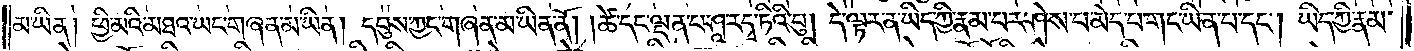མ་ཡིན། ཕྱི་མའི་མཐའ་ཡང་གཞན་མ་ཡིན། དབུས་ཀྱང་གཞན་མ་ཡིན་ནོ། །ཚེ་དང་ལྡན་པ་ཤཱ་རདྭ་ཏིའི་བུ། དེ་ལྟར་ན་ཡིད་ཀྱི་རྣམ་པར་ཤེས་པ་མེད་པ་གང་ཡིན་པ་དང༌། ཡིད་ཀྱི་རྣམ་
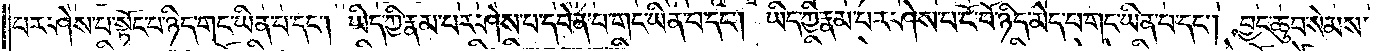པར་ཤེས་པ་སྟོང་པ་ཉིད་གང་ཡིན་པ་དང༌། ཡིད་ཀྱི་རྣམ་པར་ཤེས་པ་དབེན་པ་གང་ཡིན་པ་དང༌། ཡིད་ཀྱི་རྣམ་པར་ཤེས་པ་ངོ་བོ་ཉིད་མེད་པ་གང་ཡིན་པ་དང༌། བྱང་ཆུབ་སེམས་
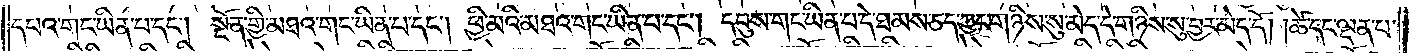དཔའ་གང་ཡིན་པ་དང༌། སྔོན་གྱི་མཐའ་གང་ཡིན་པ་དང༌། ཕྱི་མའི་མཐའ་གང་ཡིན་པ་དང༌། དབུས་གང་ཡིན་པ་དེ་ཐམས་ཅད་ཀྱང་གཉིས་སུ་མེད་དེ་གཉིས་སུ་བྱར་མེད་དོ། །ཚེ་དང་ལྡན་པ་
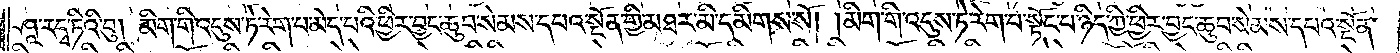ཤཱ་རདྭ་ཏིའི་བུ། མིག་གི་འདུས་ཏེ་རེག་པ་མེད་པའི་ཕྱིར་བྱང་ཆུབ་སེམས་དཔའ་སྔོན་གྱི་མཐར་མི་དམིགས་སོ། །མིག་གི་འདུས་ཏེ་རེག་པ་སྟོང་པ་ཉིད་ཀྱི་ཕྱིར་བྱང་ཆུབ་སེམས་དཔའ་སྔོན་
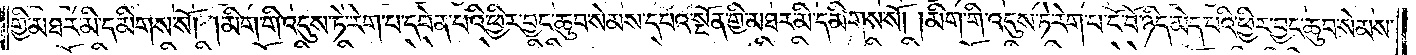གྱི་མཐར་མི་དམིགས་སོ། །མིག་གི་འདུས་ཏེ་རེག་པ་དབེན་པའི་ཕྱིར་བྱང་ཆུབ་སེམས་དཔའ་སྔོན་གྱི་མཐར་མི་དམིགས་སོ། །མིག་གི་འདུས་ཏེ་རེག་པ་ངོ་བོ་ཉིད་མེད་པའི་ཕྱིར་བྱང་ཆུབ་སེམས་
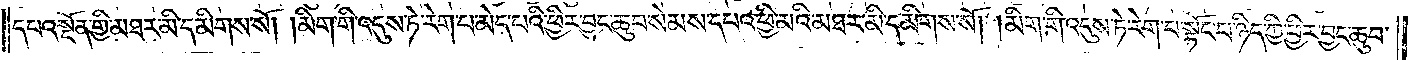དཔའ་སྔོན་གྱི་མཐར་མི་དམིགས་སོ། །མིག་གི་འདུས་ཏེ་རེག་པ་མེད་པའི་ཕྱིར་བྱང་ཆུབ་སེམས་དཔའ་ཕྱི་མའི་མཐར་མི་དམིགས་སོ། །མིག་གི་འདུས་ཏེ་རེག་པ་སྟོང་པ་ཉིད་ཀྱི་ཕྱིར་བྱང་ཆུབ་
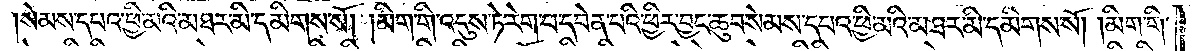སེམས་དཔའ་ཕྱི་མའི་མཐར་མི་དམིགས་སོ། །མིག་གི་འདུས་ཏེ་རེག་པ་དབེན་པའི་ཕྱིར་བྱང་ཆུབ་སེམས་དཔའ་ཕྱི་མའི་མཐར་མི་དམིགས་སོ། །མིག་གི་
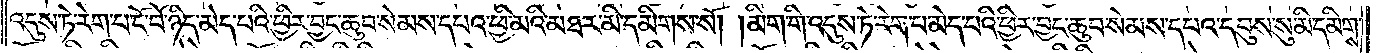འདུས་ཏེ་རེག་པ་ངོ་བོ་ཉིད་མེད་པའི་ཕྱིར་བྱང་ཆུབ་སེམས་དཔའ་ཕྱི་མའི་མཐར་མི་དམིགས་སོ། །མིག་གི་འདུས་ཏེ་རེག་པ་མེད་པའི་ཕྱིར་བྱང་ཆུབ་སེམས་དཔའ་དབུས་སུ་མི་དམིགས་
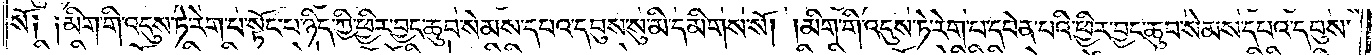སོ། །མིག་གི་འདུས་ཏེ་རེག་པ་སྟོང་པ་ཉིད་ཀྱི་ཕྱིར་བྱང་ཆུབ་སེམས་དཔའ་དབུས་སུ་མི་དམིགས་སོ། །མིག་གི་འདུས་ཏེ་རེག་པ་དབེན་པའི་ཕྱིར་བྱང་ཆུབ་སེམས་དཔའ་དབུས་
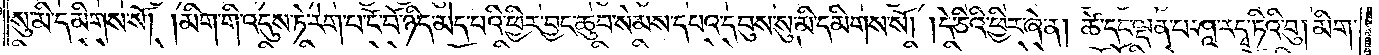སུ་མི་དམིགས་སོ། །མིག་གི་འདུས་ཏེ་རེག་པ་ངོ་བོ་ཉིད་མེད་པའི་ཕྱིར་བྱང་ཆུབ་སེམས་དཔའ་དབུས་སུ་མི་དམིགས་སོ། །དེ་ཅིའི་ཕྱིར་ཞེ་ན། ཚེ་དང་ལྡན་པ་ཤཱ་རདྭ་ཏིའི་བུ། མིག་
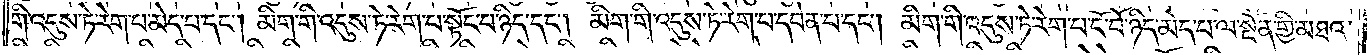གི་འདུས་ཏེ་རེག་པ་མེད་པ་དང༌། མིག་གི་འདུས་ཏེ་རེག་པ་སྟོང་པ་ཉིད་དང༌། མིག་གི་འདུས་ཏེ་རེག་པ་དབེན་པ་དང༌། མིག་གི་འདུས་ཏེ་རེག་པ་ངོ་བོ་ཉིད་མེད་པ་ལ་སྔོན་གྱི་མཐའ་
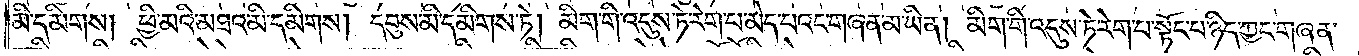མི་དམིགས། ཕྱི་མའི་མཐའ་མི་དམིགས། དབུས་མི་དམིགས་ཏེ། མིག་གི་འདུས་ཏེ་རེག་པ་མེད་པའང་གཞན་མ་ཡིན། མིག་གི་འདུས་ཏེ་རེག་པ་སྟོང་པ་ཉིད་ཀྱང་གཞན་
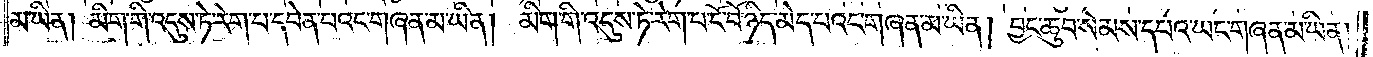མ་ཡིན། མིག་གི་འདུས་ཏེ་རེག་པ་དབེན་པའང་གཞན་མ་ཡིན། མིག་གི་འདུས་ཏེ་རེག་པ་ངོ་བོ་ཉིད་མེད་པའང་གཞན་མ་ཡིན་བྱང་ཆུབ་སེམས་དཔའ་ཡང་གཞན་མ་ཡིན།
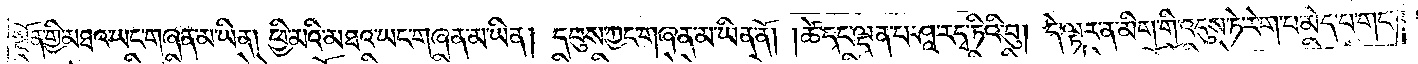སྔོན་གྱི་མཐའ་ཡང་གཞན་མ་ཡིན། ཕྱི་མའི་མཐའ་ཡང་གཞན་མ་ཡིན། དབུས་ཀྱང་གཞན་མ་ཡིན་ནོ། །ཚེ་དང་ལྡན་པ་ཤཱ་རདྭ་ཏིའི་བུ། དེ་ལྟར་ན་མིག་གི་འདུས་ཏེ་རེག་པ་མེད་པ་གང་
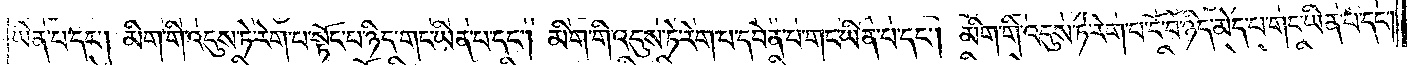ཡིན་པ་དང༌། མིག་གི་འདུས་ཏེ་རེག་པ་སྟོང་པ་ཉིད་གང་ཡིན་པ་དང༌། མིག་གི་འདུས་ཏེ་རེག་པ་དབེན་པ་གང་ཡིན་པ་དང༌། མིག་གི་འདུས་ཏེ་རེག་པ་ངོ་བོ་ཉིད་མེད་པ་གང་ཡིན་པ་དང༌།
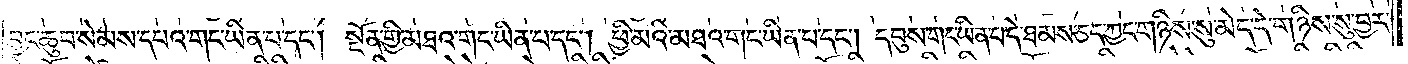བྱང་ཆུབ་སེམས་དཔའ་གང་ཡིན་པ་དང༌། སྔོན་གྱི་མཐའ་གང་ཡིན་པ་དང༌། ཕྱི་མའི་མཐའ་གང་ཡིན་པ་དང༌། དབུས་གང་ཡིན་པ་དེ་ཐམས་ཅད་ཀྱང་གཉིས་སུ་མེད་དེ་གཉིས་སུ་བྱར་
